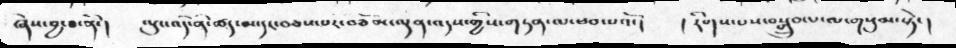ཞེས་བྱ་བ་ནི་།  ལུང་འདི་ནི་ཚད་མ་དང་བཅས་པར་བཅོམ་ལྡན་འདས་གྱིས་གཏན་ལ་ཕབ་པའོ་།   ། རིགས་པས་བསྒྲུབ་པ་ལ་གསུམ་སྟེ་།
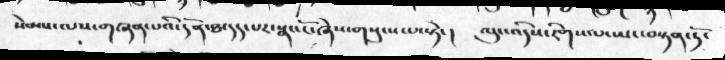སེམས་ལས་གཞན་པའི་དོན་ཐ་དད་པར་སྣང་ངོ་ཞེས་གསུངས་པ་སྟེ་།  ལུང་འདིས་རིགས་པ་ཡང་བསྟན་ཏོ་
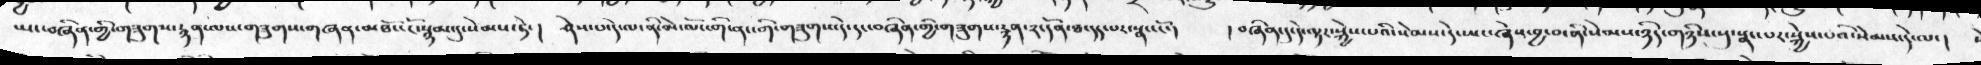ཡང་བཞིན་གྱི་གཟུགས་རྙན་ལས་གཟུགས་གཞན་མཐོང་ངོ་སྙམ་དུ་སེམས་ཏེ་།   ཤེས་པ་དེ་ལ་ནི་མེ་ལོང་གི་ནང་གི་གཟུགས་དེ་དང་བཞིན་གྱི་གཟུགས་རྙན་༢་དོན་ཐ་དད་པར་སྣང་ངོ་།   །བཞིན་དུ་དེ་ལྟར་སྐྱེས་པའི་སེམས་དེ་ཡང་ཞེས་བྱ་བ་ནི་སེམས་ཉིད་གཉིས་སུ་སྣང་པར་སྐྱེས་པའི་སེམས་དེ་ལ་།
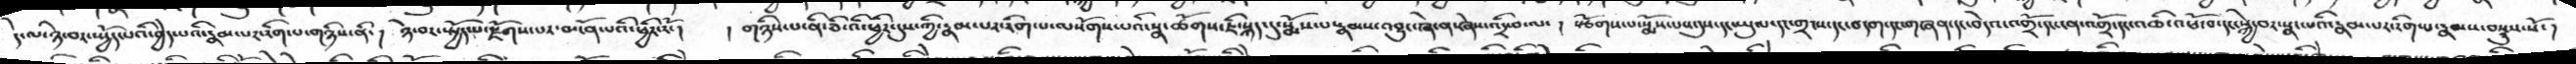དེ་ལ་ཉེ་བར་སྤྱོད་པའི་བྱེད་པའི་རྣམ་པར་རིག་པ་གཉིས་ནི་།  ཉེ་བར་སྤྱོད་པ་རྫོགས་པར་མངོན་པའི་ཕྱིར་རོ་།  །གཉིས་པ་ནི་ཅི་འི་ཕྱིར་དུས་ཀྱི་རྣམ་པར་རིག་པ་ལསོགས་པའི་སྣ་ཚོགས་ཇི་སྐད་དུ་སྨོས་པ་རྣམས་འབྱུང་ཞེ་ན་ཞེས་འདྲི་བ་ལ་།  སྩོགས་པ་སྨོས་པས་དུས་དང་ཡུལ་དང་གྲངས་དང་བདག་དང་གཞན་དང་བདེའ་འགྲོ་དང་ངན་འགྲོ་དང་འཆི་འཕོ་བ་དང་སྐྱེ་བར་སྣང་པའི་རྣམ་པར་རིག་པ་རྣམས་བསྡུས་སོ་།
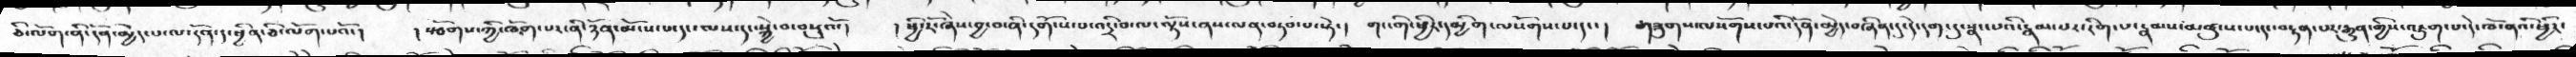ཅི་ལོག་ནི་དོན་མྱེད་པ་ལ་དོན་ད་ཕྱིན་ཅི་ལོག་པའོ་།  །སྩོགས་ཀྱི་ཁོག་པར་ནི་ཉོན་མོངས་པ་དང་ལས་དང་སྐྱེ་བ་བསྡུའོ་།   ། ཕྱི་རོ་ཞེས་བྱ་བ་ནི་དགོངས་པ་འདྲི་བ་ལ་ལྟོས་ནས་ལན་བཏབ་པ་སྟེ་།  གང་གི་ཕྱིར་དམྱིག་ལསོགས་པ་དང་།  གཟུགས་ལསོགས་པའི་དོནདམྱེད་བཞིན་དུ་དེ་དག་དུ་སྣང་པའི་རྣམ་པར་རིག་པ་རྣམས་མཚུངས་པ་དང་བརྟན་པར་རྒྱུན་གྱིས་འཇུག་པ་དེ་ཁོ་ནའི་ཕྱིར་
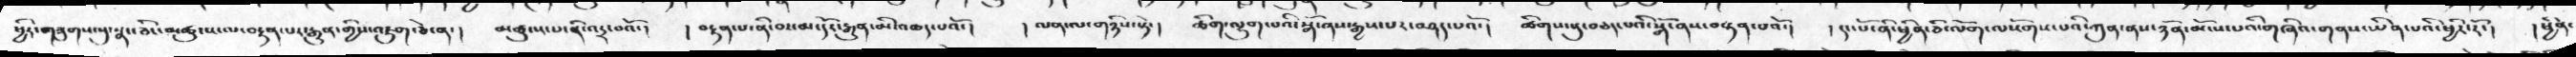ཕྱིར་གཟུགས་སུ་སྣང་ཅིང་མཚུངས་ལ་བརྟན་པར་རྒྱུན་གྱིས་འཇུག་ཅེ་ན་།  མཚུངས་པ་ནི་འདྲ་བའོ་།   །བརྟན་པ་ནི་བར་མ་དོར་རྒྱུན་མི་ཆད་པའོ་།  ། ལན་ལ་གཉིས་སྟེ་།  ཚིག་ལྷུག་པའི་སྒོ་ནས་རྒྱས་པར་བཤད་པའོ་།  ཚིགས་སུ་བཅད་པའི་སྒོ་ནས་བསྟན་པའོ་།  །དང་པོ་ནི་ཕྱིན་ཅི་ལོག་ལསོགས་པའི་ཀུན་ནས་ཉོན་མོངས་པའི་གཞིའ་གནས་ཡིན་པའི་ཕྱིར་རོ་།  །ཕྱིན་
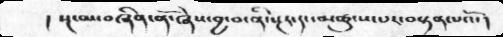། སྔ་མ་བཞིན་ནོ་ཞེས་བྱ་བ་ནི་སྔར་དང་མཚུངས་པར་བསྟན་པའོ་།
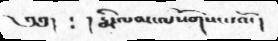༄༅།  ༴  ། རྨི་ལམ་ལསོགས་པའོ་།
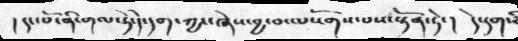། དང་པོ་ནི་གལ་ཏེ་དེ་དག་ཀྱང་ཞེས་བྱ་བ་ལསོགས་པས་སྟོན་ཏེ་།   དེ་དག་
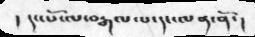།  དང་པོ་ལ་བརྒལ་པ་དང་ལན་ནོ་།
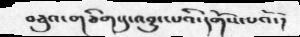བཅུའ་གཅིག་དུ་འབྱུང་པའི་དགོས་པའོ་།
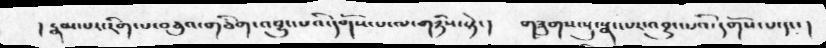། རྣམ་པར་རིག་པ་བཅུའ་གཅིག་འབྱུང་པའི་དགོས་པ་ལ་གཉིས་སྟེ་།  གཟུགས་སུ་སྣང་པར་འབྱུང་པའི་དགོས་པ་དང་།
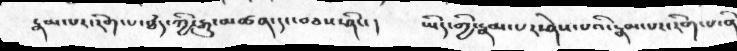རྣམ་པར་རིག་པ་ཐདཾ་ཀྱི་རྒྱུ་མཚན་དང་བཅས་ཤིང་།  ཡིད་གྱི་རྣམ་པར་ཤེས་པའི་རྣམ་པར་རིག་པ་ནི
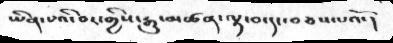ཡིན་པའི་བར་གྱིས་རྒྱུ་མཚན་ལྟ་བ་དང་བཅས་པའོ་།
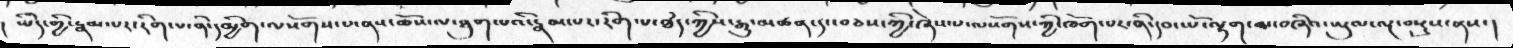། ཡིད་གྱི་རྣམ་པར་རིག་པ་ནི་དམྱིག་ལསོགས་པ་ནས་ཆོས་ལ་ཐུག་པའི་རྣམ་པར་རིག་པ་ཐདཾ་ཀྱིས་རྒྱུ་མཚན་དང་བཅས་ཀྱི་ཞེས་པ་ལསོགས་ཀྱི་ཁོག་པར་ནི་དབང་པོ་ལྷག་མ་བཞིའ་ཡུལ་ལྔ་བསྡུས་ནས་།
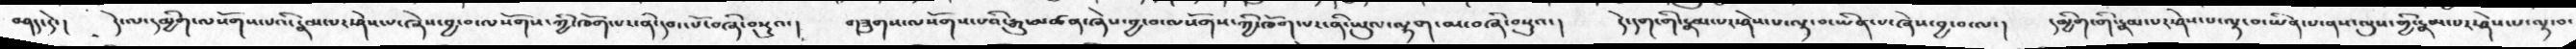བཤད་དེ།  དེ་ལ་དམྱིག་ལསོགས་པའི་རྣམ་པར་ཤེས་པ་ཞེས་བྱ་བ་ལསོགས་ཀྱི་ཁོག་པར་ནི་དབང་པོ་བཞི་བསྡུའ་།  གཟུགས་ལསོགས་པའི་རྒྱུ་མཚན་ཞེས་བྱ་བ་ལསོགས་ཀྱི་ཁོག་པར་ནི་ཡུལ་ལྷག་མ་བཞི་བསྡུའ་།  དེ་དག་གི་རྣམ་པར་ཤེས་པ་ལྟ་བ་ཡིན་པ་ཞེས་བྱ་བ་ལ་།  དམྱིག་གི་རྣམ་པར་ཤེས་པ་ལྟ་བ་ཡིན་པ་ནས་ལུས་གྱི་རྣམ་པར་ཤེས་པ་ལྟ་བ་
